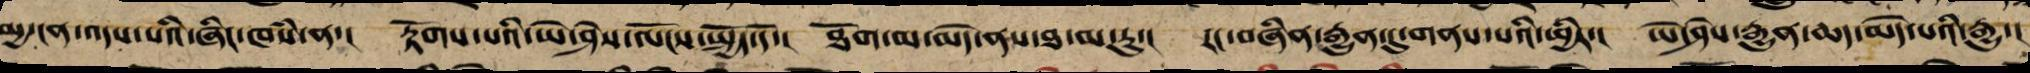མྱ་ངན་འདས་པའི་ཞིང་ཁཾས་ན་། རྟོགས་པའི་ཡེ་ཤེས་ལོངས་སྤྱོད་དོ་། ཐོག་མ་མེད་ནས་ཐ་མ་རུ་། རང་བཞིན་རྒྱུན་དུ་གནས་པའི་ཕྱིར་། ཡེ་ཤེས་རྒྱུན་ཆད་མེད་པའི་རྒྱུ་།
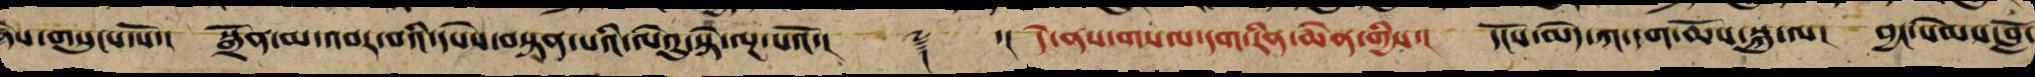ཞེས་གསུངས་སོ་། སྒྲོན་མ་འབར་བའི་དཔེས་བསྟན་པའི་ལེའུ་སྟེ་ལྔ་པའོ་།། ༈ ་།། དེ་ནས་གསལ་དག་རིན་ཆེན་གྱིས་། དངོས་མེད་ཀ་དག་ཆོས་སྐུ་ལ་། བྱང་སེམསད་བློ་
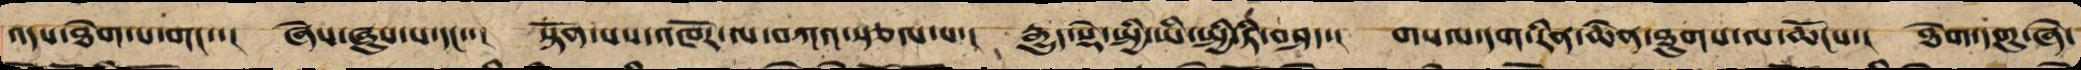འདས་ཐེག་པ་གང་་། ཞེས་ཞུས་པ་དང་་། སྟོན་པས་འཁོར་ལ་བཀའ་སྩལ་པ་། རྒྱུད་སྡེ་སྤྱི་ཡི་སྤྱི་ཏི་བཤད་། གསལ་དག་རིན་ཆེན་ཐུགས་ལ་ཆོངས་། ཐེག་དགུ་ཞེ་
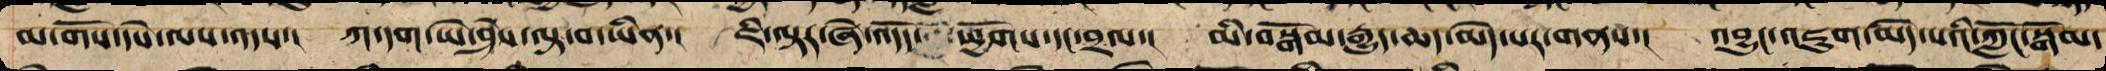མ་གོས་དཔེ་ལས་འདས་། ཀ་དག་ཡེ་ཤེས་ལྟ་བ་ཡིན་། ཇི་ལྟར་ཞེ་འདོད་ཕྱོགས་དང་བྲལ་། མི་བསྒོམ་རྒྱུན་ཆད་མེད་པར་གནས་། འབྱུང་འཇུག་མེད་པའི་ཀློང་སྒོམ་
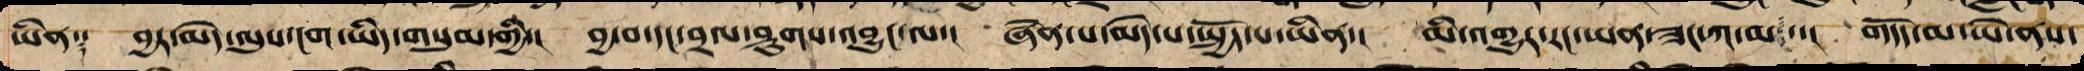ཡིན༑ བྱར་མེད་ལུས་ངག་ཡིད་གསུམ་གྱི་། བྱ་བ་དང་བྲལ་ཤུགས་འབྱུང་ལ་། ཞེན་པ་མེད་པ་སྤྱོད་པ་ཡིན་། མི་འགྱུར་རང་ཡན་ཟང་ཀ་མ་། གདོད་མ་ཡེ་ནས་
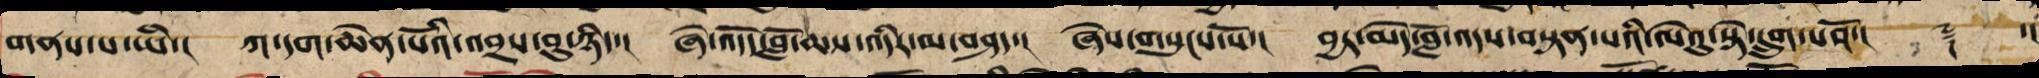གནས་པ་ཡི་། ཀ་དག་ཆེན་པོའི་འབྲས་བུ་ཡིན་། ཞེ་འདོད་བློ་ཆས་འདིར་མ་བཤད་། ཞེས་གསུངས་སོ་། བྱར་མེད་བློ་འདས་བསྟན་པའི་ལེའུ་སྟེ་དྲུག་པའོ་།། ༈ ་།།
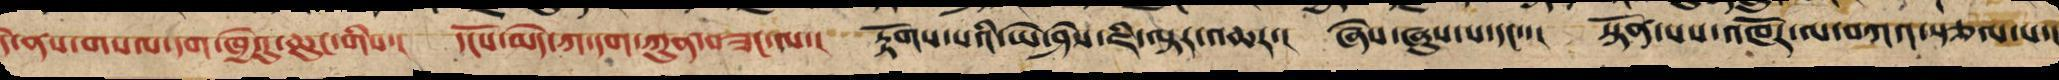དེ་ནས་གསལ་དག་ཁྱེའུ་ཆུང་གིས་། དངོས་མེད་ཀ་དག་ཀུན་བཟང་ལ་། རྟོགས་པའི་ཡེ་ཤེས་ཇི་ལྟར་འཆར་། ཞེས་ཞུས་པ་དང་་། སྟོན་པས་འཁོར་ལ་བཀའ་སྩལ་པ་།
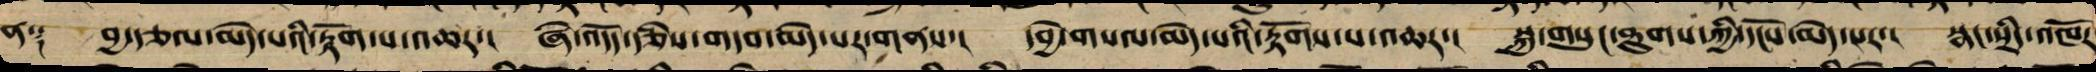ན༑ བྱ་རྩལ་མེད་པའི་རྟོག་པ་འཆར་། ཞེ་འདོད་རྩིས་གདབ་མེད་པར་གནས་། དབྱེ་བསལ་མེད་པའི་རྟོགས་པ་འཆར་། སྐུ་གསུང་ཐུགས་ཀྱི་དཔེ་མེད་པར་། སྣང་སྲིད་འཁོར
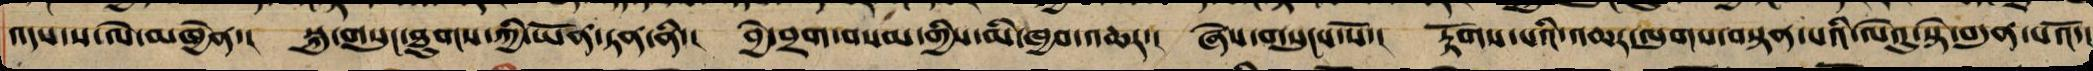འདས་ས་ལེ་མཁྱེན་། སྐུ་གསུང་ཐུགས་ཀྱི་ཡོན་ཏན་ནི་། བྱེ་བྲག་བསམ་གྱིས་མི་ཁྱབ་འཆར་། ཞེས་གསུངས་སོ་། རྟོགས་པའི་འཆར་ལུགས་བསྟན་པའི་ལེའུ་སྟེ་བདུན་པའོ།་།
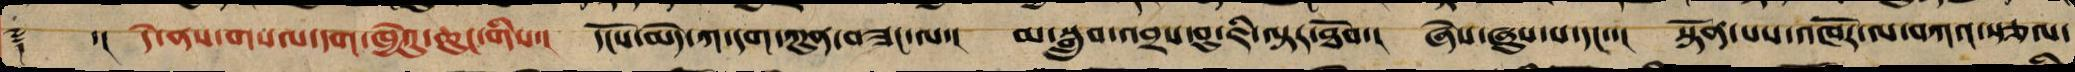༈ ་།། དེ་ནས་གསལ་དག་ཁྱེའུ་ཆུང་གིས་། དངོས་མེད་ཀ་དག་ཀུན་བཟང་ལ་། མ་སྒྲུབ་འབྲས་བུ་ཇི་ལྟར་ཐོབ་། ཞེས་ཞུས་པ་དང་་། སྟོན་པས་འཁོར་ལ་བཀའ་སྩལ་
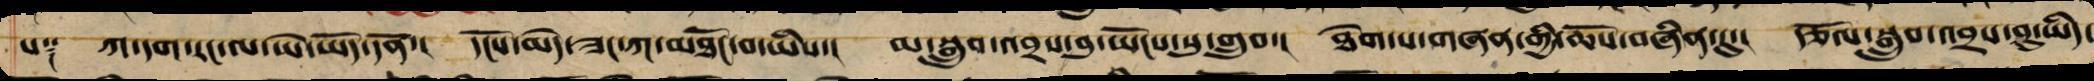པ༑ ཀ་དག་རང་ལ་ཡེ་ཡོད་དོན་། དངོས་མེད་ཟང་ཀ་མཐོང་བ་ཡིས་། མ་སྒྲུབ་འབྲས་བུ་ཡོངས་སུ་གྲུབ་། ཐེག་པ་གཞན་གྱི་ཆོས་བཞིན་དུ་། རྩོལ་སྒྲུབ་འབྲས་བུ་ཡིད་
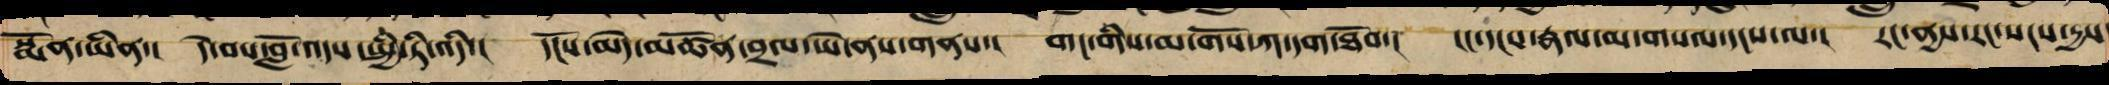སྨོན་ཡིན་། དེ་བས་བློ་འདས་སྤྱི་ཏི་འདི་། དངོས་མེད་མཚོན་བྲལ་ཡེ་ནས་གནས་། གང་གིས་མ་གོས་ཀ་དག་ཐོབ་། ངང་དངས་རྣལ་མ་གསལ་དངས་ལ་། རང་ནྱས་རང་སངས་རྱས་
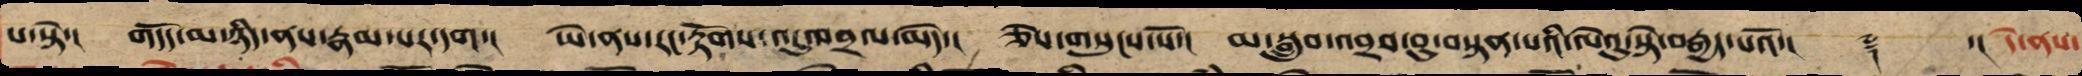པ་སྟེ་། གདོད་མ་ཉིད་ནས་རྣམ་པར་དག་། ཡེ་ནས་རང་རྟོགས་འདུ་འབྲལ་མེད་། ཅེས་གསུངས་སོ་། མ་བསྒྲུབ་འབྲས་བུ་བསྟན་པའི་ལེའུ་སྟེ་བརྒྱད་པའོ་།། ༈ ་། དེ་ནས་
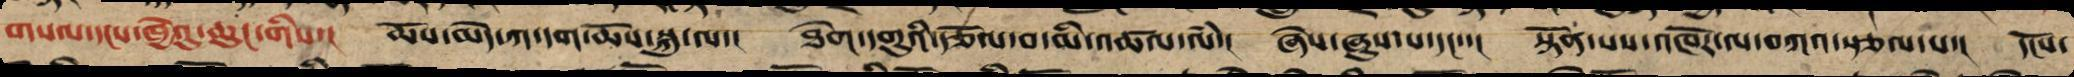གསལ་དངས་ཁྱེའུ་ཆུང་གིས་། ཆོས་མེད་ཀ་དག་ཆོས་སྐུ་ལ་། ཐེག་བརྒྱད་རྩོལ་བ་མི་འཚལ་ལཾ་། ཞེས་ཞུས་པ་དང་་། སྟོན་པས་འཁོར་ལ་བཀའ་སྩལ་པ་། དངོས་
